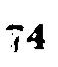74
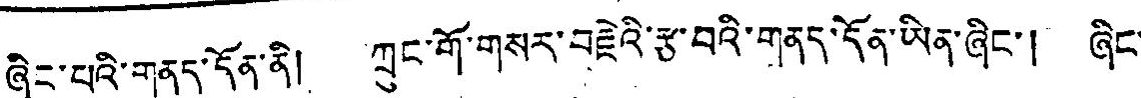ཞེང་པའི་གནད་དོན་ནི། ཀྲུང་གོ་གསར་བརྗེའི་རྩ་བའི་གནད་དོན་ཡིན་ཞིང་། ཞིང་
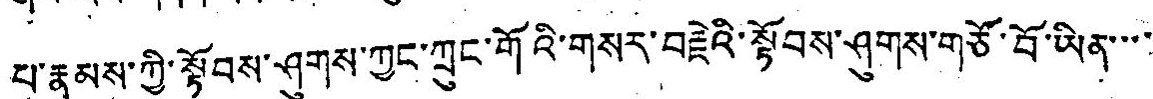པ་རྣམས་ཀྱི་སྟོབས་ཤུགས་ཀྱང་ཀྲུང་གོའི་གསར་བརྗེའི་སྟོབས་ཤུགས་གཙོ་བོ་ཡིན་་་་
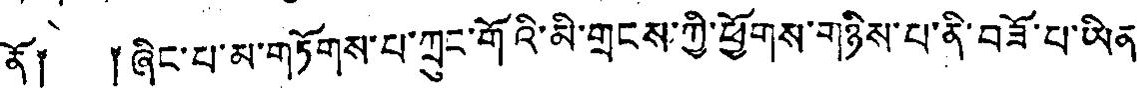ནོ༐ ༐ཞིང་པ་མ་གཏོགས་པ་ཀྲུང་གོའི་མི་གྲངས་ཀྱི་ཕྱོགས་གཉིས་པ་ནི་བཟོ་པ་ཡིན་
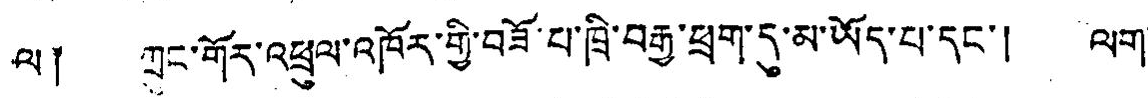ལ༐ ཀྲུང་གོར་འཕྲུལ་འཁོར་གྱི་བཟོ་པ་ཁྲི་བརྒྱ་ཕྲག་དུ་མ་ཡོད་པ་དང་། ལག་
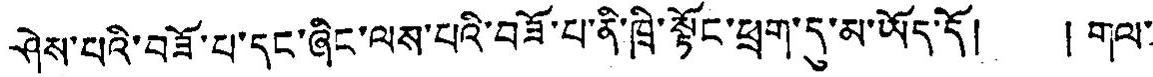ཤེས་པའི་བཟོ་པ་དང་ཞིང་ལས་པའི་བཟོ་པ་ནི་ཁྲི་སྟོང་ཕྲག་དུ་མ་ཡོད་དོ། །གལ་
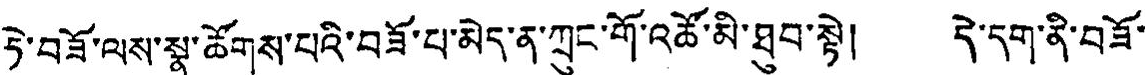ཏེ་བཟོ་ལས་སྣ་ཚོགས་པའི་བཟོ་པ་མེད་ན་ཀྲུང་གོ་འཚོ་མི་ཐུབ་སྟེ། དེ་དག་ནི་བཟོ་
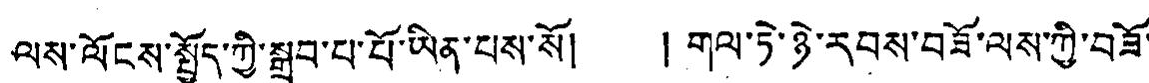ལས་ལོངས་སྤྱོད་ཀྱི་སྒྲུབ་པ་པོ་ཡིན་པས་སོ། ། གལ་ཏེ་ཉེ་རབས་བཟོ་ལས་ཀྱི་བཟོ་
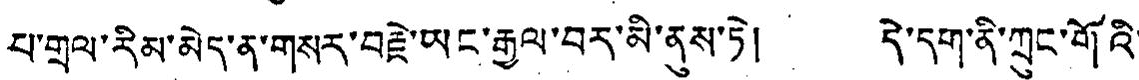པ་གྲལ་རིམ་མེད་ན་གསར་བརྗེ་ཡང་རྒྱལ་བར་མི་ནུས་ཏེ། དེ་དག་ནི་ཀྲུང་གོའི་
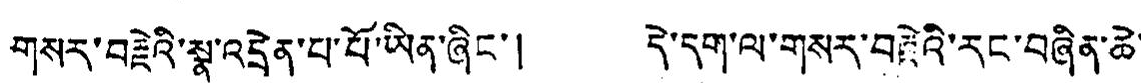གསར་བརྗེའི་སྣ་འདྲེན་པ་པོ་ཡིན་ཞིང་། དེ་དག་ལ་གསར་བརྗེའི་རང་བཞིན་ཆེ་
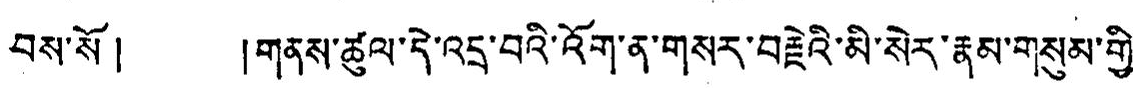བས་སོ། །གནས་ཚུལ་དེ་འདྲ་བའི་འོག་ན་གསར་བརྗེའི་མི་སེར་རྣམ་གསུམ་གྱི་
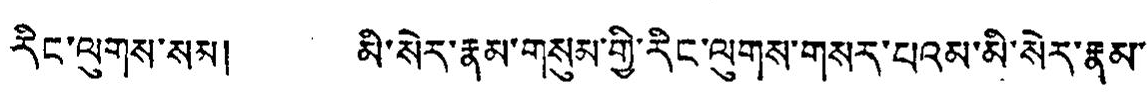རིང་ལུགས་སམ། མི་སེར་རྣམ་གསུམ་གྱི་རིང་ལུགས་གསྲ་པའམ་མི་སེར་རྣམ་
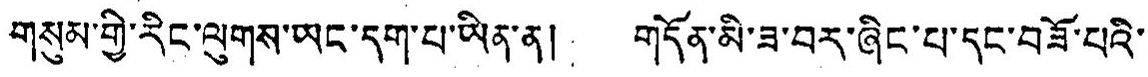གསུམ་གྱི་རིང་ལུགས་ཡང་དག་པ་ཡིན་ན། གདོན་མི་ཟ་བར་ཞིང་པ་དང་བཟོ་པའི་
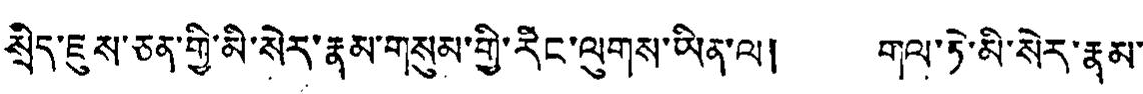སྲིད་ཇུས་ཅན་གྱི་མི་སེར་རྣམ་གསུམ་གྱི་རིང་ལུགས་ཡིན་ལ། གལ་ཏེ་མི་སེར་རྣམ་
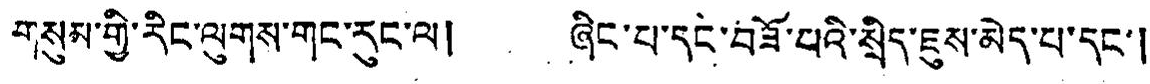གསུམ་གྱི་རིང་ལུགས་གང་རུང་ལ། ཞིང་པ་དང་བཟོ་པའི་སྲིད་ཇུས་མེད་པ་དང་།
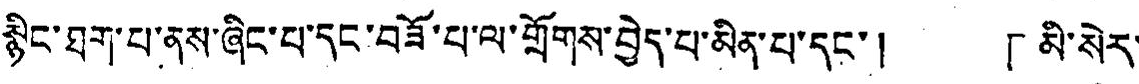སྙིང་ཐག་པ་ནས་ཞིང་པ་དང་བཟོ་པ་ལ་གྲོགས་བྱེད་པ་མིན་པ་དང་། 「མི་སེར་
